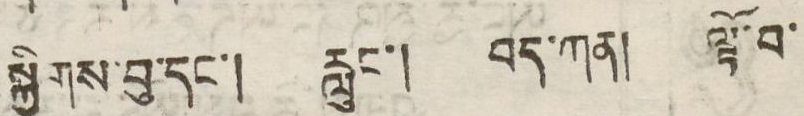སྐྱིགས་བུ་དང་། རླུང་། བད་ཀན། ལྟོ་བ་
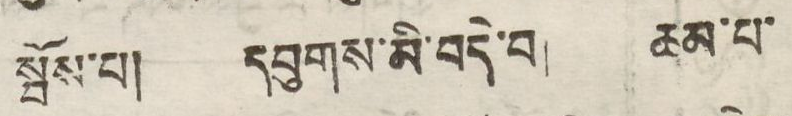སྤོས་པ། དབུགས་མི་བདེ་བ། ཆམ་པ་
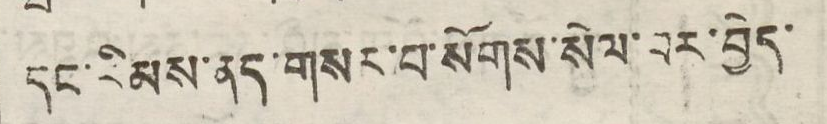དང་རིམས་ནད་གསར་བ་སོགས་སེལ་བར་བྱེད་
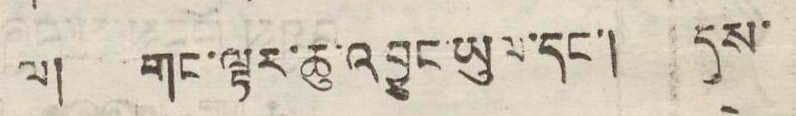ལ། གང་ལྟར་ཆུ་འབྱུང་ཡུལ་དང་། དུས་
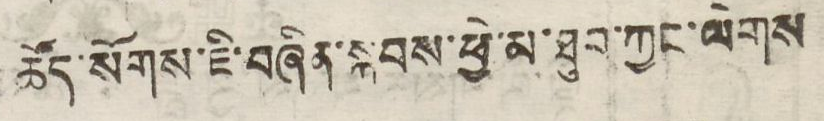ཚོད་སོགས་ཇི་བཞིན་སྐབས་ཕྱེ་མ་ཐུབ་ཀྱང་ལེགས
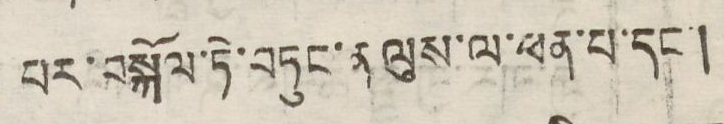པར་བསྐོལ་ཏེ་བཏུང་ན ལུས་ལ་ཕན་པ་དང་།
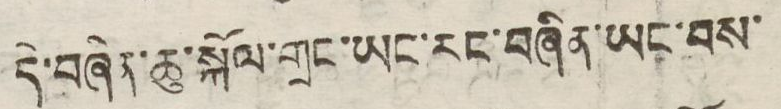དེ་བཞིན་ཆུ་སྐོལ་གྲང་ཡང་རང་བཞིན་ཡང་བས་
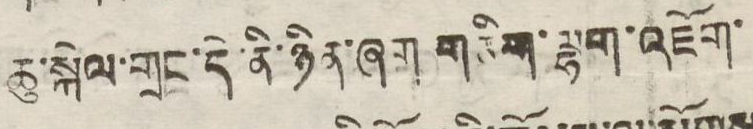ཆུ་སྐོལ་གྲང་དེ་ནི་ཉིན་ཞག གཅིག་ལྷག་འཇོག་
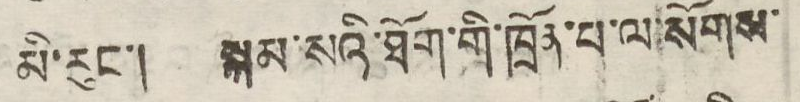མི་རུང་། སྐམ་སའི་ཐོག་གི་ཁྲོན་པ་ལ་སོགས་
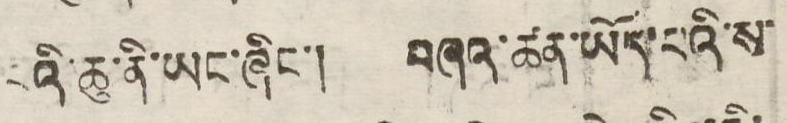པའི་ཆུ་ནི་ཡང་ཞིང་། བཞའ་ཚན་ཡོད་པའི་ས་
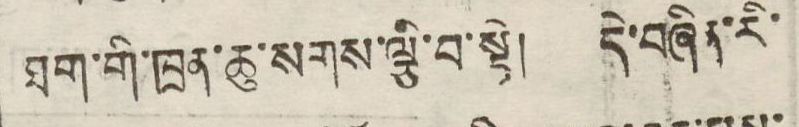ཐག་གི་ཁྲན་ཆུ་སགས་ལྕི་བ་སྟེ། དེ་བཞིན་རི་
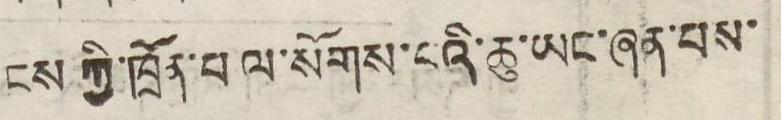ངས་ཀྱི་ཁྲོན་པ ལ་སོགས་པའི་ཆུ་ཡང་ཞན་པས་
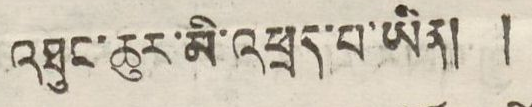འཐུང་ཆུར་མི་འཕྲད་པ་ཡིན། །
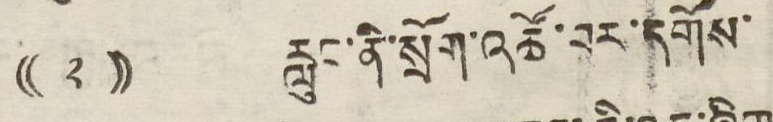(( 2 )) རླུང་ནི་སྲོག་འཚོ་བར་དགོས་
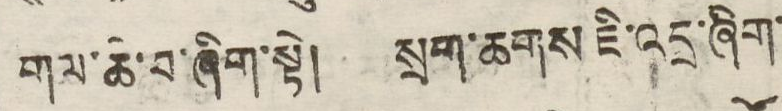གལ་ཆེ་བ་ཞིག་སྟེ། སྲག་ཆགས ཇི་འདྲ་ཞིག་
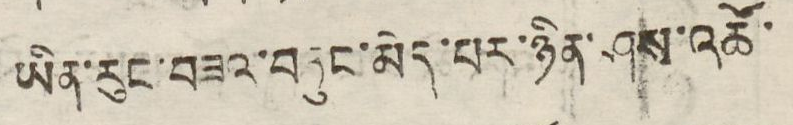ཡིན་རུང་བཟའ་བཏུང་མེད་པར་ཉིན་ཤས་འཚོ་
